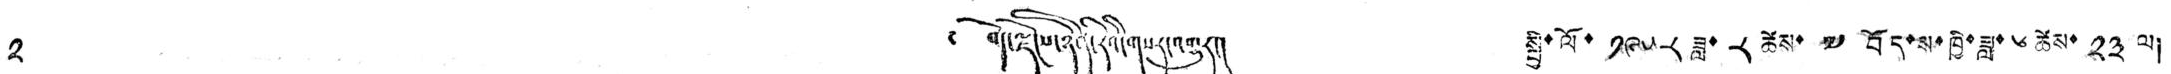༢ ༄ བོད་ལྗོངས་ཉིན་རེའི་གསར་འགྱུར། སྤྱི་ལོ་ ༡༩༥༨ ཟླ་ ༨ ཚེས་ ༧ བོད་ས་ཁྱི་ཟླ་ ༦ ཚེས་ ༢༣ ལ།
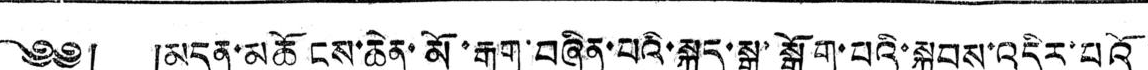༄༅། །མདུན་མཆོངས་ཆེན་མོ་རྒྱག་བཞིན་པའི་སྐད་སྒྲ་སྒྲོག་པའི་སྐབས་འདིར་པའོ་
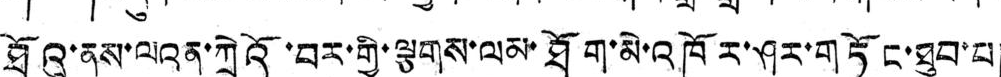ཐོའུ་ནས་ལའན་ཀྲེའོ་བར་གྱི་ལྕགས་ལམ་ཐོག་མེ་འཁོར་ཤར་གཏོང་ཐུབ་པ།
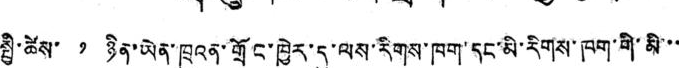སྤྱི་ཚེས་ ༡ ཉིན་ཡེན་ཁྲུའན་གྲོང་ཁྱེར་དུ་ལས་རིགས་ཁག་དང་མི་རིགས་ཁག་གི་མི་་
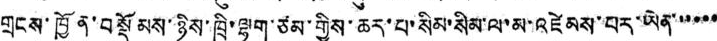གྲངས་ཁྱོན་བསྡོམས་ཉིས་ཁྲི་ལྷག་ཙམ་གྱིས་ཆར་པ་སིམ་སིམ་ལ་མ་འཛེམས་པར་ཡེན་་་་་་
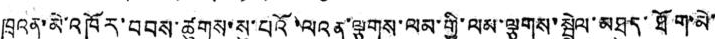ཁྲུའན་མེ་འཁོར་བབས་ཚུགས་སུ་པའོ་ལའན་ལྕགས་ལམ་གྱི་ལམ་ལྕགས་སྦྲེལ་མཐུད་ཐོག་མེ་
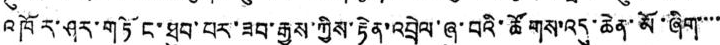འཁོར་ཤར་གཏོང་ཐུབ་པར་ཟབ་རྒྱས་ཀྱིས་རྟེན་འབྲེལ་ཞུ་བའི་ཚོགས་འདུ་ཆེན་མོ་ཞིག་་་་
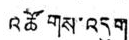འཚོགས་འདུག
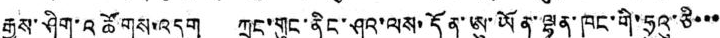རྒྱས་ཤིག་འཚོགས་འདུག ཀྲུང་གུང་ནིང་ཤའ་ལས་དོན་ཨུ་ཡོན་ལྷན་ཁང་གི་ཧྲུའུ་ཅི་་་
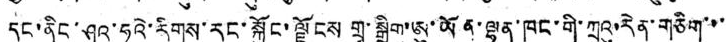དང་ནིང་ཤའ་ཧུའེ་རིགས་རང་སྐྱོང་ལྗོངས་གྲྭ་སྒྲིག་ཨུ་ཡོན་ལྷན་ཁང་གི་ཀྲུའུ་རེན་གཅིག་་་
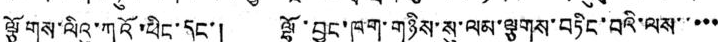ལྕོགས་ལིའུ་ཀའོ་ཕིང་དང་། ལྷོ་བྱང་ཁག་གཉིས་སུ་ལམ་ལྕགས་བཏིང་བའི་ལས་་་་་
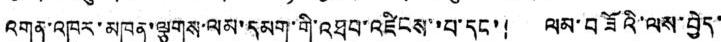འགན་འཁུར་མཁན་ལྕགས་ལམ་དམག་གི་འཐབ་འཛིངས་་བ་དང་། ལམ་བཟོའི་ལས་བྱེད་
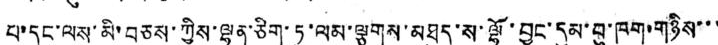པ་དང་ལས་མི་བཅས་ཀྱིས་ལྷན་ཅིག་ཏུ་ལམ་ལྕགས་མཐུད་ས་ལྷོ་བྱང་དུམ་བུ་ཁག་གཉིས་་་
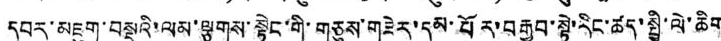དབར་མཇུག་བསྡུའི་ལམ་ལྕགས་སྟེང་གི་གཅུས་གཟེར་དམ་པོར་བརྒྱབ་སྟེ་རིང་ཚད་སྤྱི་ལེ་ཆིག
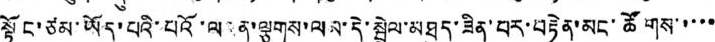སྟོང་ཙམ་ཡོད་པའི་པའོ་ལའན་ལྕགས་ལམ་དེ་སྦྲེལ་མཐུད་ཟིན་བར་བརྟེན་མང་ཚོགས་་་་་
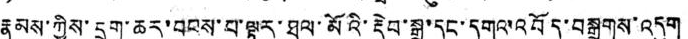རྣམས་ཀྱིས་དྲག་ཆར་བབས་པ་ལྟར་ཐལ་མོའི་རྡེབ་སྒྲ་དང་དགའ་འབོད་བསྒྲགས་འདུག
